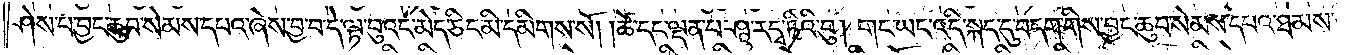ཤེས་པ་བྱང་ཆུབ་སེམས་དཔའ་ཞེས་བྱ་བ་དེ་ལྟ་བུའང་མེད་ཅིང་མི་དམིགས་སོ། །ཚེ་དང་ལྡན་པ་ཤཱ་ར་དྭ་ཏིའི་བུ། གང་ཡང་འདི་སྐད་དུ་བདག་གིས་བྱང་ཆུབ་སེམས་དཔའ་ཐམས་
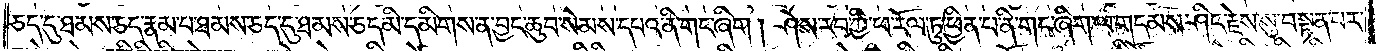ཅད་དུ་ཐམས་ཅད་རྣམ་པ་ཐམས་ཅད་དུ་ཐམས་ཅད་མི་དམིགས་ན་བྱང་ཆུབ་སེམས་དཔའ་ནི་གང་ཞིག །ཤེས་རབ་ཀྱི་ཕ་རོལ་ཏུ་ཕྱིན་པ་ནི་གང་ཞིག་ལ་གདམས་ཤིང་རྗེས་སུ་བསྟན་པར་
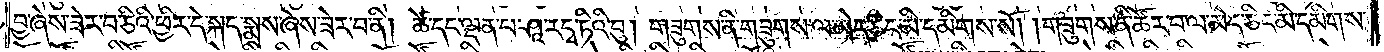བྱ་ཞེས་ཟེར་བ་ཅིའི་ཕྱིར་དེ་སྐད་སྨྲས་ཞེས་ཟེར་བ་ནི། ཚེ་དང་ལྡན་པ་ཤཱ་ར་དྭ་ཏིའི་བུ། གཟུགས་ནི་གཟུགས་ལ་མེད་ཅིང་མི་དམིགས་སོ། །གཟུགས་ནི་ཚོར་བ་ལ་མེད་ཅིང་མི་དམིགས་
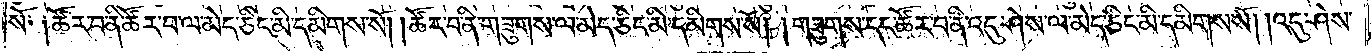སོ། །ཚོར་བ་ནི་ཚོར་བ་ལ་མེད་ཅིང་མི་དམིགས་སོ། །ཚོར་བ་ནི་གཟུགས་ལ་མེད་ཅིང་མི་དམིགས་སོ། །གཟུགས་དང་ཚོར་བ་ནི་འདུ་ཤེས་ལ་མེད་ཅིང་མི་དམིགས་སོ། །འདུ་ཤེས་
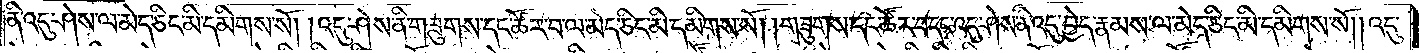ནི་འདུ་ཤེས་ལ་མེད་ཅིང་མི་དམིགས་སོ། །འདུ་ཤེས་ནི་གཟུགས་དང་ཚོར་བ་ལ་མེད་ཅིང་མི་དམིགས་སོ། །གཟུགས་དང་ཚོར་བ་དང་འདུ་ཤེས་ནི་འདུ་བྱེད་རྣམས་ལ་མེད་ཅིང་མི་དམིགས་སོ། །འདུ་
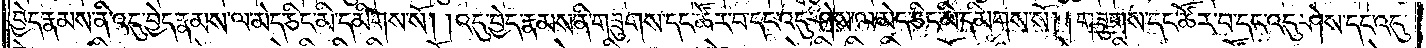བྱེད་རྣམས་ནི་འདུ་བྱེད་རྣམས་ལ་མེད་ཅིང་མི་དམིགས་སོ། །འདུ་བྱེད་རྣམས་ནི་གཟུགས་དང་ཚོར་བ་དང་འདུ་ཤེས་ལ་མེད་ཅིང་མི་དམིགས་སོ། །གཟུགས་དང་ཚོར་བ་དང་འདུ་ཤེས་དང་འདུ་
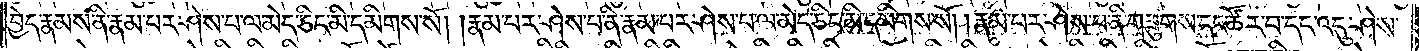བྱེད་རྣམས་ནི་རྣམ་པར་ཤེས་པ་ལ་མེད་ཅིང་མི་དམིགས་སོ། །རྣམ་པར་ཤེས་པ་ནི་རྣམ་པར་ཤེས་པ་ལ་མེད་ཅིང་མི་དམིགས་སོ། །རྣམ་པར་ཤེས་པ་ནི་གཟུགས་དང་ཚོར་བ་དང་འདུ་ཤེས་
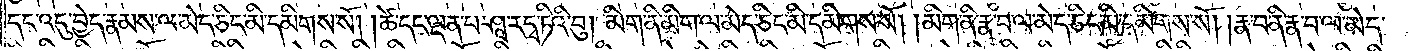དང་འདུ་བྱེད་ལ་མེད་ཅིང་མི་དམིགས་སོ། །ཚེ་དང་ལྡན་པ་ཤཱ་ར་དྭ་ཏིའི་བུ། མིག་ནི་མིག་ལ་མེད་ཅིང་མི་དམིགས་སོ། །མིག་ནི་རྣ་བ་ལ་མེད་ཅིང་མི་དམིགས་སོ། །རྣ་བ་ནི་རྣ་བ་ལ་མེད་
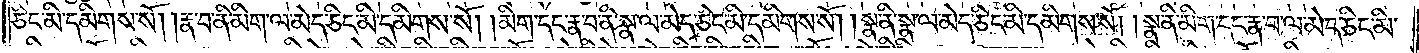ཅིང་མི་དམིགས་སོ། །རྣ་བ་ནི་མིག་ལ་མེད་ཅིང་མི་དམིགས་སོ། །མིག་དང་རྣ་བ་ནི་སྣ་ལ་མེད་ཅིང་མི་དམིགས་སོ། །སྣ་ནི་སྣ་ལ་མེད་ཅིང་མི་དམིགས་སོ། །སྣ་ནི་མིག་དང་རྣ་བ་ལ་མེད་ཅིང་མི་
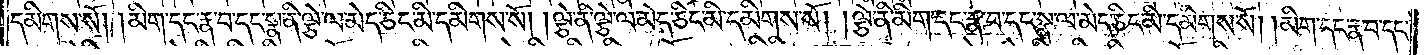དམིགས་སོ། །མིག་དང་རྣ་བ་དང་སྣ་ནི་ལྕེ་ལ་མེད་ཅིང་མི་དམིགས་སོ། །ལྕེ་ནི་ལྕེ་ལ་མེད་ཅིང་མི་དམིགས་སོ། །ལྕེ་ནི་མིག་དང་རྣ་བ་དང་སྣ་ལ་མེད་ཅིང་མི་དམིགས་སོ། །མིག་དང་རྣ་བ་དང་
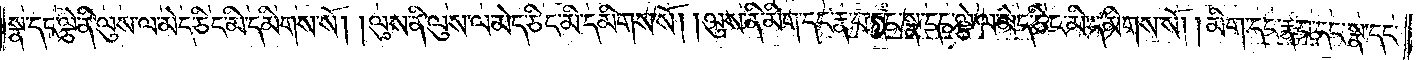སྣ་དང་ལྕེ་ནི་ལུས་ལ་མེད་ཅིང་མི་དམིགས་སོ། །ལུས་ནི་ལུས་ལ་མེད་ཅིང་མི་དམིགས་སོ། །ལུས་ནི་མིག་དང་རྣ་བ་དང་སྣ་དང་ལྕེ་ལ་མེད་ཅིང་མི་དམིགས་སོ། །མིག་དང་རྣ་བ་དང་སྣ་དང་
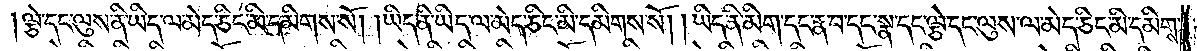ལྕེ་དང་ལུས་ནི་ཡིད་ལ་མེད་ཅིང་མི་དམིགས་སོ། །ཡིད་ནི་ཡིད་ལ་མེད་ཅིང་མི་དམིགས་སོ། །ཡིད་ནི་མིག་དང་རྣ་བ་དང་སྣ་དང་ལྕེ་དང་ལུས་ལ་མེད་ཅིང་མི་དམིགས་
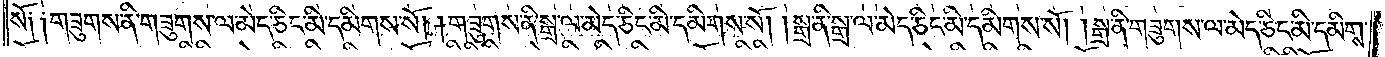སོ། །གཟུགས་ནི་གཟུགས་ལ་མེད་ཅིང་མི་དམིགས་སོ། །གཟུགས་ནི་སྒྲ་ལ་མེད་ཅིང་མི་དམིགས་སོ། །སྒྲ་ནི་སྒྲ་ལ་མེད་ཅིང་མི་དམིགས་སོ། །སྒྲ་ནི་གཟུགས་ལ་མེད་ཅིང་མི་དམིགས་
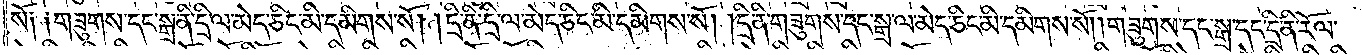སོ། །གཟུགས་དང་སྒྲ་ནི་དྲི་ལ་མེད་ཅིང་མི་དམིགས་སོ། །དྲི་ནི་དྲི་ལ་མེད་ཅིང་མི་དམིགས་སོ། །དྲི་ནི་གཟུགས་དང་སྒྲ་ལ་མེད་ཅིང་མི་དམིགས་སོ། །གཟུགས་དང་སྒྲ་དང་དྲི་ནི་རོ་ལ་
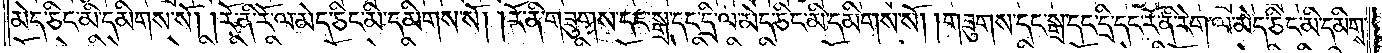མེད་ཅིང་མི་དམིགས་སོ། །རོ་ནི་རོ་ལ་མེད་ཅིང་མི་དམིགས་སོ། །རོ་ནི་གཟུགས་དང་སྒྲ་དང་དྲི་ལ་མེད་ཅིང་མི་དམིགས་སོ། །གཟུགས་དང་སྒྲ་དང་དྲི་དང་རོ་ནི་རེག་ལ་མེད་ཅིང་མི་དམིགས་
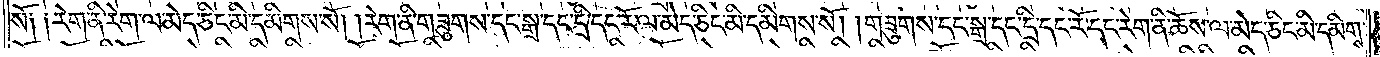སོ། །རེག་ནི་རེག་ལ་མེད་ཅིང་མི་དམིགས་སོ། །རེག་ནི་གཟུགས་དང་སྒྲ་དང་དྲི་དང་རོ་ལ་མེད་ཅིང་མི་དམིགས་སོ། །གཟུགས་དང་སྒྲ་དང་དྲི་དང་རོ་དང་རེག་ནི་ཆོས་ལ་མེད་ཅིང་མི་དམིགས་
